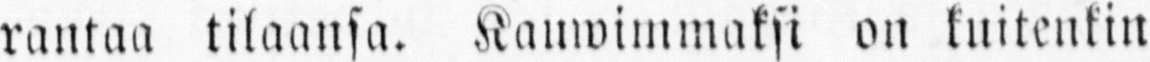rantaa tilaansa. Kauwimmaksi on kuitenkin
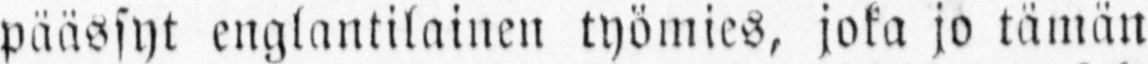päässyt englantilainen työmies, joka jo tämän
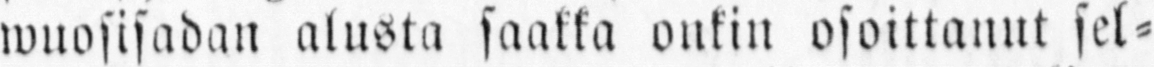wuosisadan alusta saakka onkin osoittanut sel-
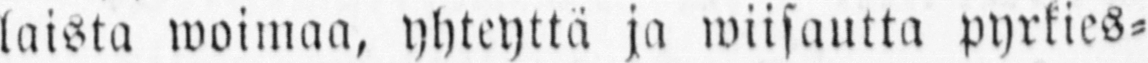laista woimaa, yhteyttä ja wiisautta pyrkies-
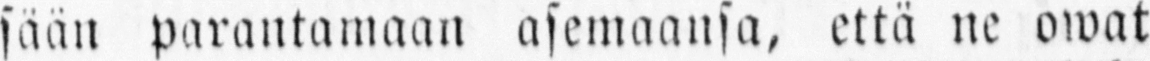sään parantamaan asemaansa, että ne owat
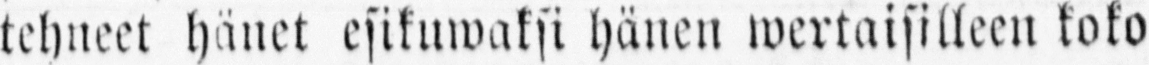tehneet hänet esikuwaksi hänen wertaisilleen koko
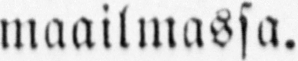maailmassa.
